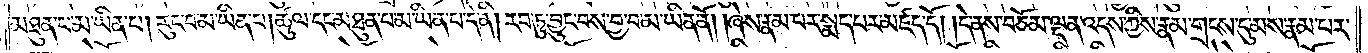མཐུན་པ་མ་ཡིན་པ། རུང་བ་མ་ཡིན་པ། ཚུལ་དང་མཐུན་པ་མ་ཡིན་པ་དེ་ནི། རབ་ཏུ་བྱུང་བས་བྱ་བ་མ་ཡིན་ནོ། །ཞེས་རྣམ་པར་སྨད་པར་མཛད་དོ། །དེ་ནས་བཅོམ་ལྡན་འདས་ཀྱིས་རྣམ་གྲངས་དུ་མས་རྣམ་པར་
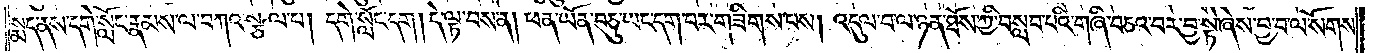སྨད་ནས་དགེ་སློང་རྣམས་ལ་བཀའ་སྩལ་པ། དགེ་སློང་དག །དེ་ལྟ་བས་ན། ཕན་ཡོན་བཅུ་ཡང་དག་པར་གཟིགས་པས། འདུལ་བ་ལ་ཉན་ཐོས་ཀྱི་བསླབ་པའི་གཞི་བཅའ་བར་བྱ་སྟེ་ཞེས་བྱ་བ་ལ་སོགས་
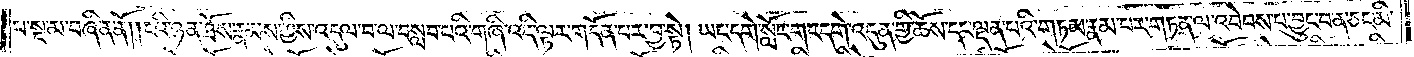པ་སྔ་མ་བཞིན་ནོ། །ངའི་ཉན་ཐོས་རྣམས་ཀྱིས་འདུལ་བ་ལ་བསླབ་པའི་གཞི་འདི་ལྟར་གདོན་པར་བྱ་སྟེ། ཡང་དགེ་སློང་གང་དགེ་འདུན་གྱི་ཆོས་དང་ལྡན་པའི་གཏམ་རྣམ་པར་གཏན་ལ་འབེབས་པ་བྱུང་བ་ན་ཅང་མི་
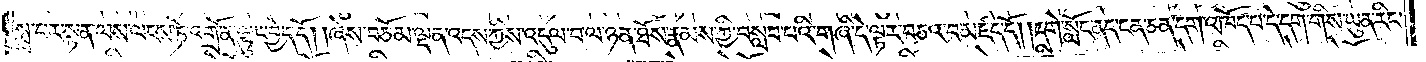སྨྲ་བར་སྟན་ལས་ལངས་ཏེ་འགྲོ་ན་ལྟུང་བྱེད་དོ། །ཞེས་བཅོམ་ལྡན་འདས་ཀྱིས་འདུལ་བ་ལ་ཉན་ཐོས་རྣམས་ཀྱི་བསླབ་པའི་གཞི་དེ་ལྟར་བཅའ་བ་མཛད་དོ། །དགེ་སློང་ནད་ངན་ཅན་དག་འཁོད་པ་དེ་དག་གིས་ཡུན་རིང་
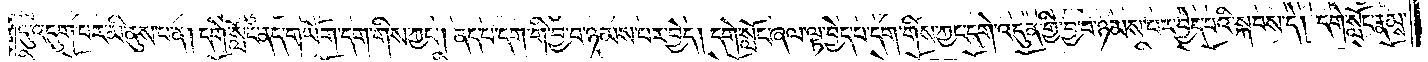དུ་འདུག་པར་མི་ནུས་པ་ན། དགེ་སློང་ནད་གཡོག་དག་གིས་ཀྱང༌། ནད་པ་དག་གི་བྱ་བ་ཉམས་པར་བྱེད། དགེ་སློང་ཞལ་ལྟ་བྱེད་པ་དག་གིས་ཀྱང་དགེ་འདུན་གྱི་བྱ་བ་ཉམས་པར་བྱེད་པའི་སྐབས་དེ། དགེ་སློང་རྣམས་
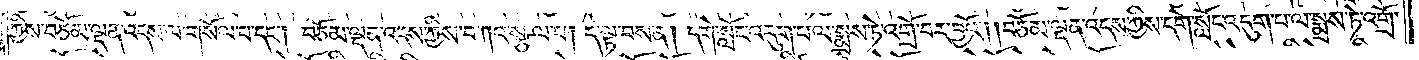ཀྱིས་བཅོམ་ལྡན་འདས་ལ་གསོལ་པ་དང༌། བཅོམ་ལྡན་འདས་ཀྱིས་བཀའ་སྩལ་པ། དེ་ལྟ་བས་ན། དགེ་སློང་འདུག་པ་ལ་སྨྲས་ཏེ་འགྲོ་བར་བྱའོ། །བཅོམ་ལྡན་འདས་ཀྱིས་དགེ་སློང་འདུག་པ་ལ་སྨྲས་ཏེ་འགྲོ་
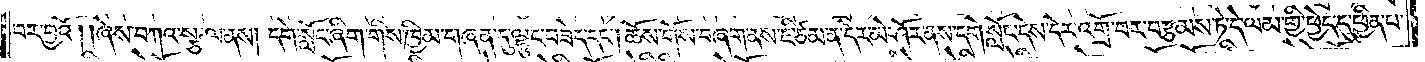བར་བྱའོ། །ཞེས་བཀའ་སྩལ་ནས། དགེ་སློང་ཞིག་གིས་ཁྱིམ་གཞན་དུ་ལྷུང་བཟེད་དང༌། ཆོས་གོས་བཞག་ནས་ཇི་ཙམ་ན་དེར་མེ་ཤོར་ནས་དགེ་སློང་དེས་དེར་འགྲོ་བར་བརྩམས་ཏེ་དེ་ལམ་གྱི་ཕྱེད་དུ་ཕྱིན་པ་
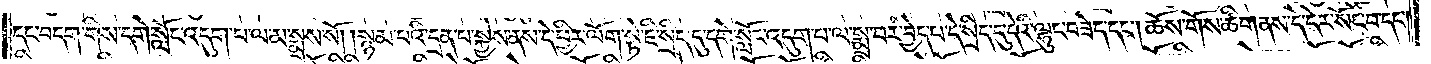དང་བདག་གིས་དགེ་སློང་འདུག་པ་ལ་མ་སྨྲས་སོ། །སྙམ་པའི་དྲན་པ་སྐྱེས་ནས་དེ་ཕྱིར་ལོག་སྟེ་ཇི་སྲིད་དུ་དགེ་སློང་འདུག་པ་ལ་སྨྲ་བར་བྱེད་པ་དེ་སྲིད་དུ་དེའི་ལྷུང་བཟེད་དང༌། ཆོས་གོས་ཚིག་ནས་དེ་དེར་སོང་བ་དང་
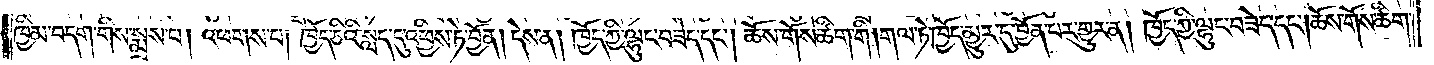ཁྱིམ་བདག་གིས་སྨྲས་པ། འཕགས་པ། ཁྱོད་ཅིའི་སླད་དུ་འཕྱིས་ཏེ་བྱོན། དེས་ན། ཁྱོད་ཀྱི་ལྷུང་བཟེད་དང༌། ཆོས་གོས་ཚིག་གི །གལ་ཏེ་ཁྱོད་མྱུར་དུ་བྱོན་པར་གྱུར་ན། ཁྱོད་ཀྱི་ལྷུང་བཟེད་དང༌། ཆོས་གོས་ཚིག་
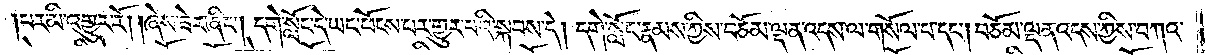པར་མི་འགྱུར་རོ། །ཞེས་ཟེར་ཞིང༌། དགེ་སློང་དེ་ཡང་ཕོངས་པར་གྱུར་པའི་སྐབས་དེ། དགེ་སློང་རྣམས་ཀྱིས་བཅོམ་ལྡན་འདས་ལ་གསོལ་པ་དང༌། བཅོམ་ལྡན་འདས་ཀྱིས་བཀའ་
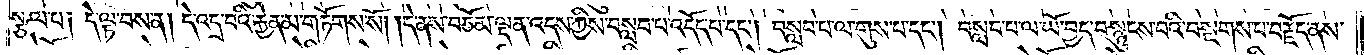སྩལ་པ། དེ་ལྟ་བས་ན། དེ་འདྲ་བའི་རྐྱེན་མ་གཏོགས་སོ། །དེ་ནས་བཅོམ་ལྡན་འདས་ཀྱིས་བསླབ་པ་འདོད་པ་དང༌། བསླབ་པ་ལ་གུས་པ་དང༌། བསླབ་པ་ལ་ཡོ་བྱད་བསྙུངས་པའི་བསྔགས་པ་བརྗོད་ནས་
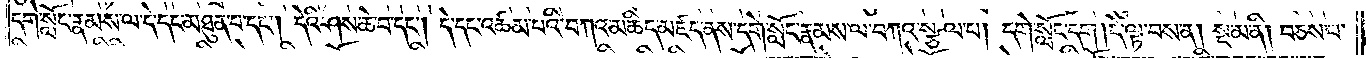དགེ་སློང་རྣམས་ལ་དེ་དང་མཐུན་པ་དང༌། དེའི་ཤས་ཆེ་བ་དང༌། དེ་དང་འཚམ་པའི་བཀའ་མཆིད་མཛད་ནས་དགེ་སློང་རྣམས་ལ་བཀའ་སྩལ་པ། དགེ་སློང་དག །དེ་ལྟ་བས་ན། སྔ་མ་ནི། བཅས་པ་
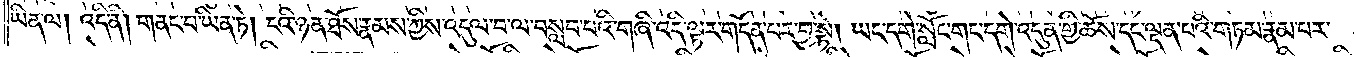ཡིན་ལ། འདི་ནི། གནང་བ་ཡིན་ཏེ། ངའི་ཉན་ཐོས་རྣམས་ཀྱིས་འདུལ་བ་ལ་བསླབ་པའི་གཞི་འདི་ལྟར་གདོན་པར་བྱ་སྟེ། ཡང་དགེ་སློང་གང་དགེ་འདུན་གྱི་ཆོས་དང་ལྡན་པའི་གཏམ་རྣམ་པར་
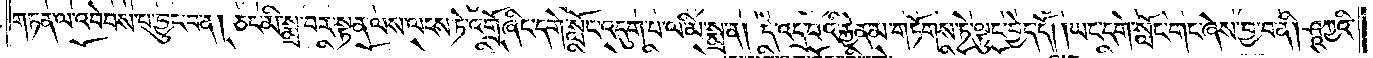གཏན་ལ་འབེབས་པ་བྱུང་བ་ན། ཅང་མི་སྨྲ་བར་སྟན་ལས་ལངས་ཏེ་འགྲོ་ཞིང་དགེ་སློང་འདུག་པ་ལ་མི་སྨྲ་ན། དེ་འདྲ་བའི་རྐྱེན་མ་གཏོགས་ཏེ་ལྟུང་བྱེད་དོ། །ཡང་དགེ་སློང་གང་ཞེས་བྱ་བ་ནི། ཤཱཀྱའི་
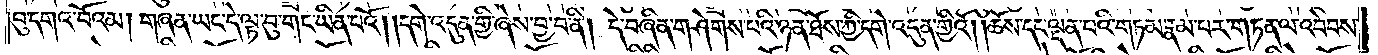བུ་དགའ་བོའམ། གཞན་ཡང་དེ་ལྟ་བུ་གང་ཡིན་པའོ། །དགེ་འདུན་གྱི་ཞེས་བྱ་བ་ནི། དེ་བཞིན་གཤེགས་པའི་ཉན་ཐོས་ཀྱི་དགེ་འདུན་གྱིའོ། །ཆོས་དང་ལྡན་པའི་གཏམ་རྣམ་པར་གཏན་ལ་འབེབས་
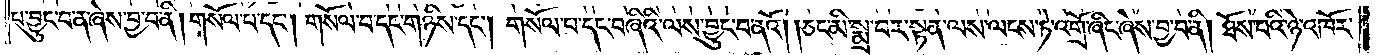པ་བྱུང་བ་ན་ཞེས་བྱ་བ་ནི། གསོལ་པ་དང༌། གསོལ་བ་དང་གཉིས་དང༌། གསོལ་བ་དང་བཞིའི་ལས་བྱུང་བ་ནའོ། །ཅང་མི་སྨྲ་བར་སྟན་ལས་ལངས་ཏེ་འགྲོ་ཞིང་ཞེས་བྱ་བ་ནི། ཐོས་པའི་ཉེ་འཁོར་
